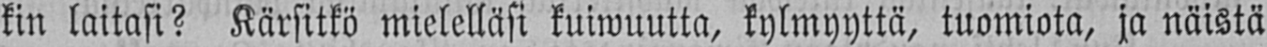kin laitasi? Kärsitkö mielelläsi kuiwuutta, kylmyyttä, tuomiota, ja näistä
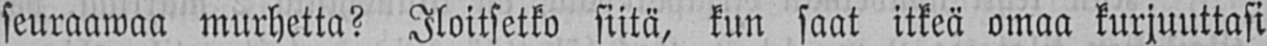seuraawaa murhetta? Iloitsetko siitä, kun saat itkeä omaa kurjuuttasi
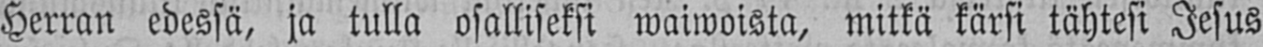Herran edessä, ja tulla osalliseksi waiwoista, mitkä kärsi tähtesi Jesus
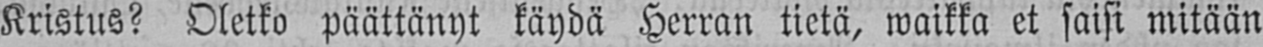Kristus? Oletko päättänyt käydä Herran tietä, waikka et saisi mitään
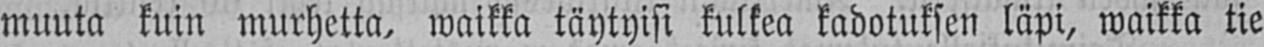muuta kuin murhetta, waikka täytyisi kulkea kadotuksen läpi, waikka tie
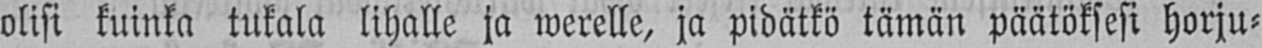olisi kuinka tukala lihalle ja werelle, ja pidätkö tämän päätöksesi horju-
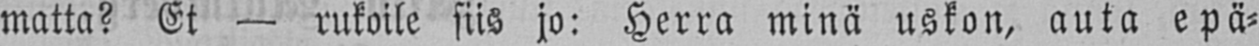matta? Et — rukoile siis jo: Herra minä uskon, auta epä-
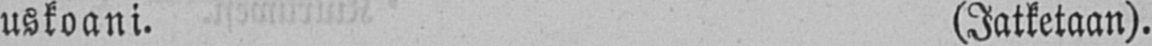uskoani. (Jatketaan).
